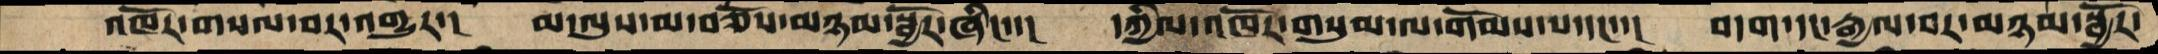འཁོར་གསལ་བར་འགྱུར་།   མ་ལུས་མ་བཅོས་མཉམ་སྦྱོར་ཞིང་་།   དཀྱིལ་འཁོར་གསུམ་ལ་གོམས་པ་དང་་།   བདག་དང་རྒྱལ་བར་མཉམ་སྦྱོར་
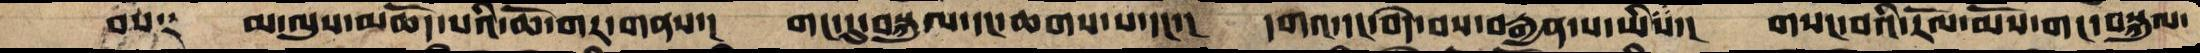བས༑   མ་ལུས་མཆོད་པའི་ཆོ་གར་གནས་།   གང་དུ་བསྐུལ་དང་ཆགས་པ་དང་།   དགའ་དང་བདེ་བས་བརྒྱན་པ་ཡིས་།   གསང་བའི་རོལ་མོས་གང་བསྐུལ་
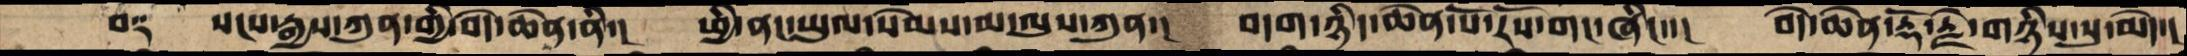བ༑   སངས་རྒྱས་ཀུན་གྱི་བདེ་ཆེན་ནི་།   ཕྱི་ནང་ཡུལ་སེམས་མ་ལུས་ཀུན་།  བདག་ཉིད་ཆེན་པོ་རོས་གང་ཞིང་་།  བདེ་ཆེེན་རྡོ་རྗེ་གཉིས་སུ་མེད་།
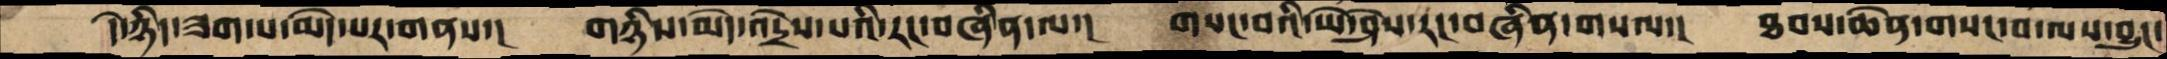དེ་ཉིད་ཟག་པ་མེད་པར་གནས་།   གཉིས་མེད་འདྲེས་པའི་རང་བཞིན་ལ་།   གསང་བའི་ཡེ་ཤེས་རང་བཞིན་གསལ་།   ཐབས་ཆེན་གསང་བ་ལས་བྱུང་
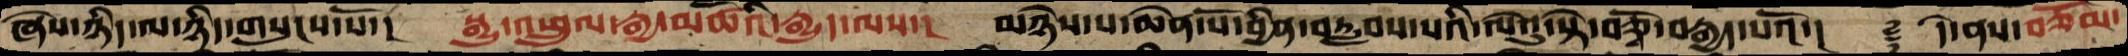ཞེས་ཉིད་ལ་ཉིད་གསུངས་སོ་།   སྒྱུ་འཕྲུལ་རྒྱ་མཚོའི་རྒྱུད་ལས་།  མཉེས་པ་ཆེན་པོ་བྱིན་བརླབས་པའི་ལེའུ་སྟེ་བཅྭོ་བརྒྱད་པའོ་།  ࿑   དེ་ནས་བཅོམ་
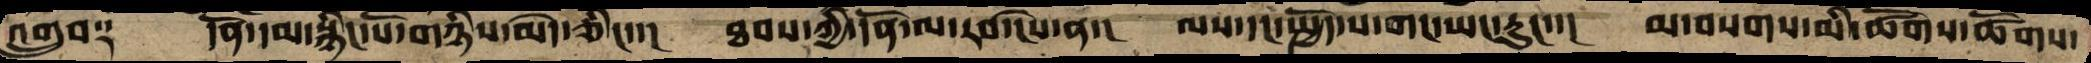འགྲུབ༑   དོན་དམ་སྙིང་པོ་གཉིས་མེད་ཅིང་་།   ཐབས་ཀྱི་དོན་ལ་རབ་ངེས་ན་།   ལས་དང་སྤྱོད་པ་གང་ཡང་རུང་་།   མ་བསགས་མི་ཚོགས་ཚོགས་
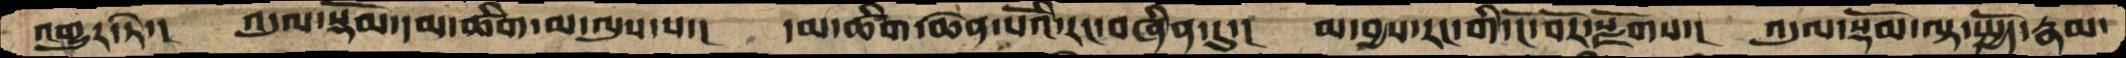འགྱུར་ཏེ་།   འདུལ་སྡོམ་དམ་ཚིག་མ་ལུས་པ་།   དམ་ཚིག་ཆེན་པོའི་རང་བཞིན་དུ་།   མ་བྱས་རང་གི་ངོ་བོར་སྫོགས་།   འདུལ་སྡོམ་ལྟ་སྤྱོད་རྣམ་
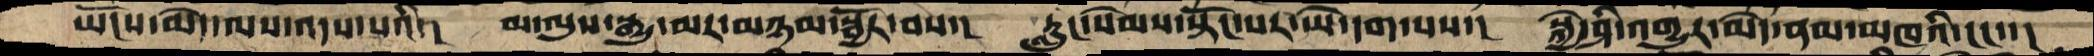ཡོངས་མེད་ལས་འདས་པའི་།   མ་ལུས་སྒྱུ་མར་མཉམ་སྦྱོར་བས་།   རླུང་སེམས་སྟོང་པར་ཡེ་དག་པས་།   སྐྱེ་ཤི་འགྱུར་མེད་ནམ་མཁའི་ངང་་།
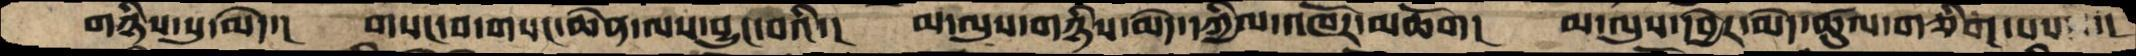གཉིས་སུ་མེད་།   གསང་བ་གསང་ཆེན་ལས་བྱུང་བའི་།   མ་ལུས་གཉིས་མེད་དཀྱིལ་འཁོར་མཆོག།   མ་ལུས་དབྱེར་མེད་ཚུལ་གཅིག་པས  ་།
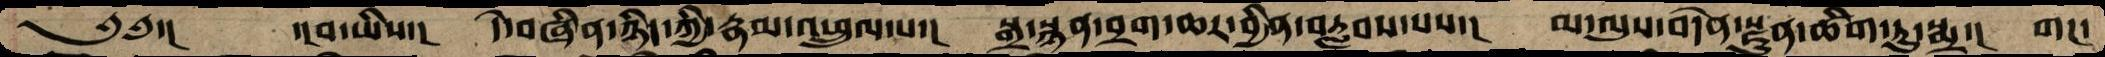༄༅་།       ་།བ་ཡིས་།  དེ་བཞིན་ཉིད་ཀྱི་རྣམ་འཕྲུལ་པ་།  སྒྲ་སྙན་བྲག་ཆར་བྱིན་བརླབས་པས་།   མ་ལུས་བདེན་སྫུན་ཚིག་ཏུ་སྨྲ་།  གང་
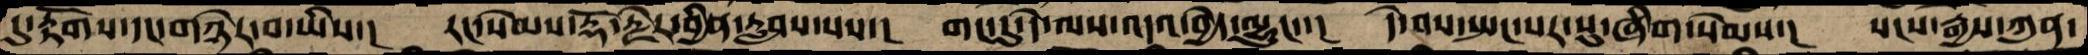དུ་རྟོགས་དང་གཉེར་བ་ཡིས་།  རང་སེམས་རྡོ་རྗེར་བྱིན་རླབས་པས་།  གང་དུ་དེ་ལས་འདའ་བྱེད་ལྷུང་་།   དེ་བས་སྤང་པར་སུ་ཞིག་སེམས་།   སངས་རྒྱས་ཀུན་
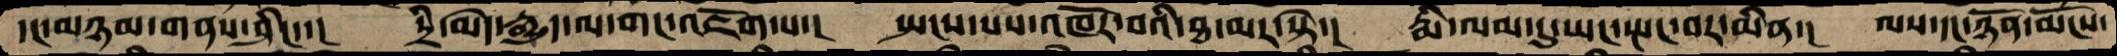དང་མཉམ་གནས་ཤིང་་།   དྲི་མེད་རྒྱུད་ལ་གང་འཇོག་པ་།  སྤངས་པས་འཁོར་བའི་ཐ་མར་སྟེ་།   རྨི་ལམ་དུ་ཡང་སྤང་བར་མིན་།   ལས་དང་ཉོན་མོངས་
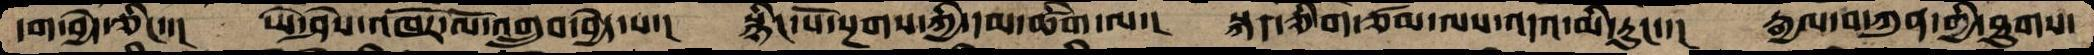དག་བྱེད་ཅིང་་།  ཡེ་ཤེས་འཁོར་ལོ་འགྲུབ་བྱེད་པ་།  སྙིང་པོ་སྔགས་ཀྱི་དམ་ཚིག་ལ་།  སྐད་ཅིག་ཙམ་ལས་འདའ་མི་རུང་་།  རྒྱལ་བ་ཀུན་གྱི་ཐུགས་
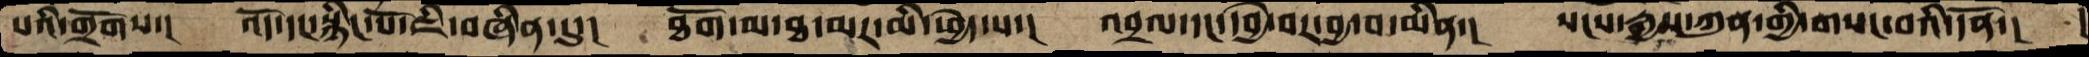པའི་གྲོགས་།  འོད་དང་སྙིང་པོ་ཇི་བཞིན་དུ་།  ཐོག་མ་ཐ་མར་མི་ཕྱེད་པ་།  འབྲལ་དང་དབྱེ་བར་བྱ་བ་མིན་།   སངས་རྒྱས་ཀུན་གྱི་གསང་བའི་དོན་།
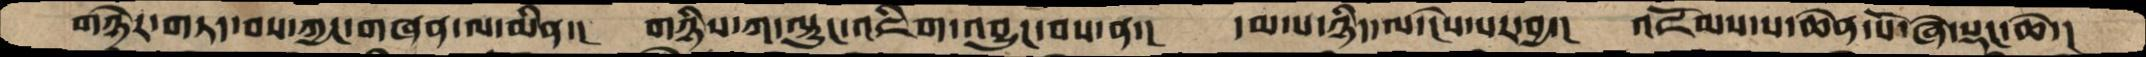གཉེར་གཏད་བས་ཀྱང་གཞན་ལ་མིན་།  གཉིས་ཀ་ལྟུང་འཇིག་འབྱུང་བས་ན་།  དམ་པ་ཉིད་ལ་ངེས་པར་བྱ་།  འཇོམས་པ་ཆེན་པོ་ཞེ་སྡང་ཆེ་།
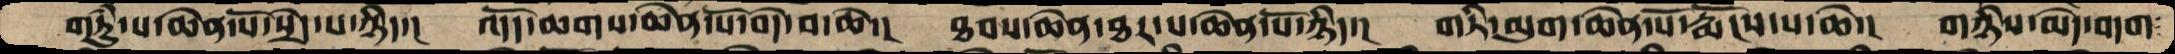གཏུཾ་པ་ཆེན་པོ་སྲེད་པ་ཉིད་།   འདོད་ཆགས་ཆེན་པོ་བདེ་བ་ཆེ་།  ཐབས་ཆེན་ཐར་པ་ཆེན་པོ་ཉིད་།  གཏི་མུག་ཆེན་པོ་རྨོངས་པ་ཆེ་།  གཉིས་མེད་བདག་
